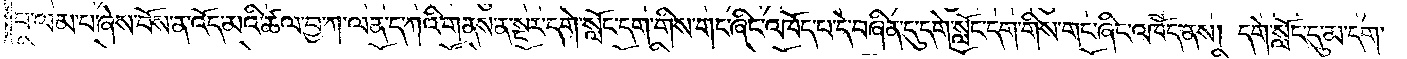པ་ལམ་པ་ཞེས་བོས་ན་འོད་མའི་ཚལ་བྱ་ཀ་ལན་ཀའི་གནས་ན་སྔར་དགེ་སློང་དག་གིས་གང་ཞིང་འཁོད་པ་དེ་བཞིན་དུ་དགེ་སློང་དག་གིས་གང་ཞིག་འཁོད་ནས། དགེ་སློང་དུ་མ་དག་
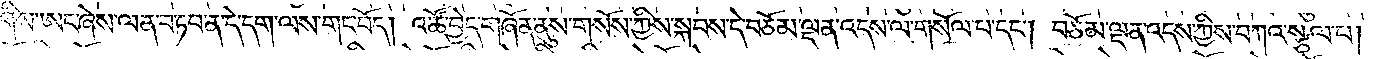གིས་ཨང་ཞེས་ལན་བཏབ་ན་དེ་དག་ལས་གང་བོད། འཚོ་བྱེད་གཞོན་ནུས་གསོས་ཀྱིས་སྐབས་དེ་བཅོམ་ལྡན་འདས་ལ་གསོལ་པ་དང༌། བཅོམ་ལྡན་འདས་ཀྱིས་བཀའ་སྩལ་པ།
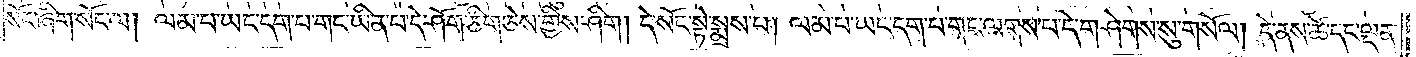སོང་ཞིག་སོང་ལ། ལམ་པ་ཡང་དག་པ་གང་ཡིན་པ་དེ་ཤོག་ཅིག་ཅེས་གྱིས་ཤིག །དེ་སོང་སྟེ་སྨྲས་པ། ལམ་པ་ཡང་དག་པ་གང་ལགས་པ་དེ་གཤེགས་སུ་གསོལ། དེ་ནས་ཚེ་དང་ལྡན་
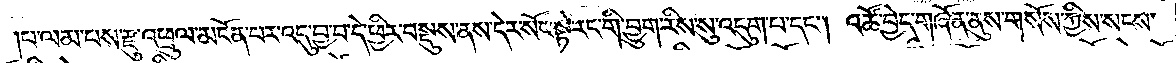པ་ལམ་པས་རྫུ་འཕྲུལ་མངོན་པར་འདུ་བྱ་བ་དེ་ཕྱིར་བསྡུས་ནས་དེར་སོང་སྟེ་རང་གི་བྱུག་རིས་སུ་འདུག་པ་དང༌། འཚོ་བྱེད་གཞོན་ནུས་གསོས་ཀྱིས་སངས་
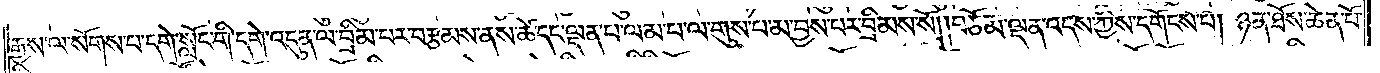རྒྱས་ལ་སོགས་པ་དགེ་སློང་གི་དགེ་འདུན་ལ་བྲིམ་པར་བརྩམས་ནས་ཚེ་དང་ལྡན་པ་ལམ་པ་ལ་གུས་པ་མ་བྱས་པར་བྲིམས་སོ། །བཅོམ་ལྡན་འདས་ཀྱིས་དགོངས་པ། ཉན་ཐོས་ཆེན་པོ་
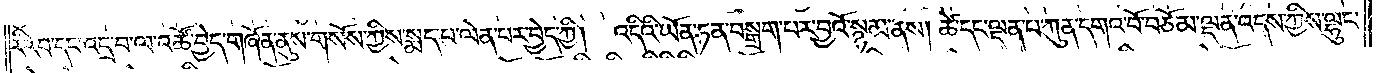རི་རབ་དང་འདྲ་བ་ལ་འཚོ་བྱེད་གཞོན་ནུས་གསོས་ཀྱིས་སྨད་པ་ལེན་པར་བྱེད་ཀྱི། འདིའི་ཡོན་ཏན་བསྒྲག་པར་བྱའོ་སྙམ་ནས། ཚེ་དང་ལྡན་པ་ཀུན་དགའ་བོ་བཅོམ་ལྡན་འདས་ཀྱིས་ལྷུང་
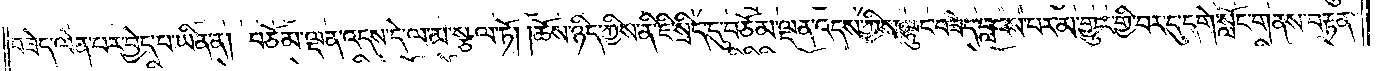བཟེད་ལེན་པར་བྱེད་པ་ཡིན་ན། བཅོམ་ལྡན་འདས་དེ་ལ་མ་སྩལ་ཏོ། །ཆོས་ཉིད་ཀྱིས་ནི་ཇི་སྲིད་དུ་བཅོམ་ལྡན་འདས་ཀྱིས་ལྷུང་བཟེད་བླངས་པར་མ་གྱུར་གྱི་བར་དུ་དགེ་སློང་གནས་བརྟན་
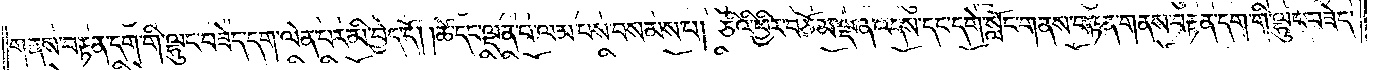གནས་བརྟན་དག་གི་ལྷུང་བཟེད་དག་ལེན་པར་མི་བྱེད་དོ། །ཚེ་དང་ལྡན་པ་ལམ་པས་བསམས་པ། ཅིའི་ཕྱིར་བཅོམ་ལྡན་འདས་དང་དགེ་སློང་གནས་བརྟན་གནས་བརྟན་དག་གི་ལྷུང་བཟེད་
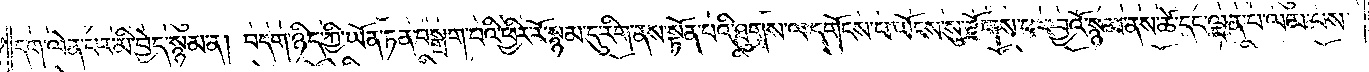དག་ལེན་པར་མི་བྱེད་སྙམ་ན། བདག་ཉིད་ཀྱིས་ཡོན་ཏན་བསྒྲག་པའི་ཕྱིར་རོ་སྙམ་དུ་རིག་ནས་སྟོན་པའི་ཐུགས་ལ་དགོངས་པ་ཡོངས་སུ་རྫོགས་པར་བྱའོ་སྙམ་ནས་ཚེ་དང་ལྡན་པ་ལམ་པས་
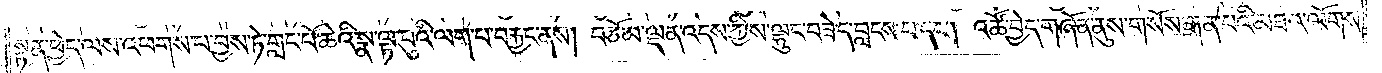སྟན་ཕྱེད་ལས་འཕགས་པ་བྱས་ཏེ་གླང་པོ་ཆེའི་སྣ་ལྟ་བུའི་ལག་པ་བརྐྱང་ནས། བཅོམ་ལྡན་འདས་ཀྱིས་ལྷུང་བཟེད་བླངས་པ་དང༌། འཚོ་བྱེད་གཞོན་ནུས་གསོས་རྒན་པའི་མཐའ་ལོགས་
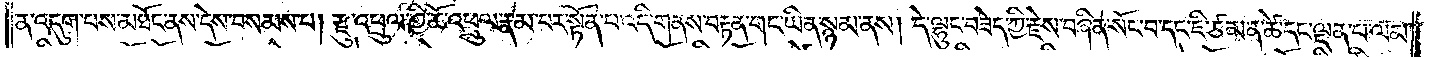ན་འདུག་པས་མཐོང་ནས་དེས་བསམས་པ། རྫུ་འཕྲུལ་གྱི་ཆོ་འཕྲུལ་རྣམ་པར་སྟོན་པ་འདི་གནས་བརྟན་གང་ཡིན་སྙམ་ནས། དེ་ལྷུང་བཟེད་ཀྱི་རྗེས་བཞིན་སོང་བ་དང་ཇི་ཙམ་ན་ཚེ་དང་ལྡན་པ་ལམ་
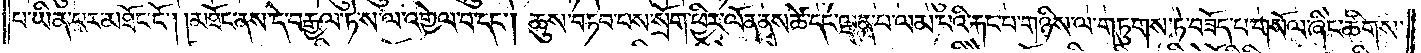པ་ཡིན་པར་མཐོང་ངོ༌། །མཐོང་ནས་དེ་བརྒྱལ་ཏེ་ས་ལ་འགྱེལ་བ་དང༌། ཆུས་བཏབ་པས་སྲོག་ཕྱིར་ལོན་ནས་ཚེ་དང་ལྡན་པ་ལམ་པའི་རྐང་པ་གཉིས་ལ་གཏུགས་ཏེ་བཟོད་པ་གསོལ་ཞིང་ཚིགས་
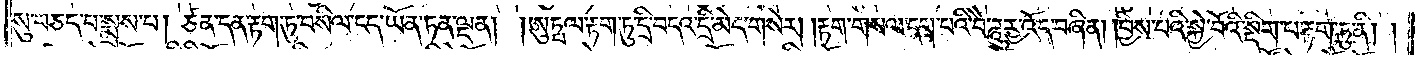སུ་བཅད་པ་སྨྲས་པ། ཙན་དན་རྟག་ཏུ་བསིལ་ངད་ཡོན་ཏན་ལྡན། །ཨུཏྤལ་རྟག་ཏུ་དྲི་བདའ་དྲི་མེད་གསེར། །རྟག་གསལ་དག་པའི་བཻ་ཌཱུཪྻ་འོད་བཞིན། །བྱིས་པའི་སྐྱེ་བོའི་སྡིག་པ་རྟག་ཏུ་ནི། །
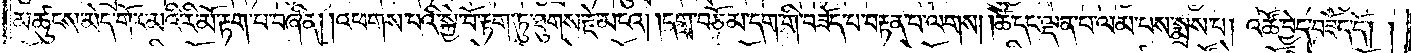མཚུངས་མེད་གོར་མའི་རི་མོ་རྟག་པ་བཞིན། །འཕགས་པའི་སྐྱེ་བོ་རྟག་ཏུ་ཐུགས་རྗེ་མངའ། །དགྲ་བཅོམ་དག་གི་བཟོད་པ་བརྟན་པ་ལགས། །ཚེ་དང་ལྡན་པ་ལམ་པས་སྨྲས་པ། འཚོ་བྱེད་བཟོད་དོ། །
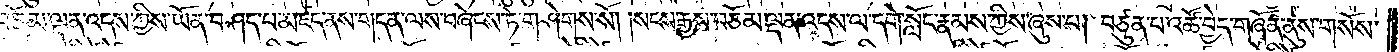བཅོམ་ལྡན་འདས་ཀྱིས་ཡོན་བཤད་པ་མཛད་ནས་གདན་ལས་བཞེངས་ཏེ་གཤེགས་སོ། །སངས་རྒྱས་བཅོམ་ལྡན་འདས་ལ་དགེ་སློང་རྣམས་ཀྱིས་ཞུས་པ། བཙུན་པ་འཚོ་བྱེད་གཞོན་ནུས་གསོས་
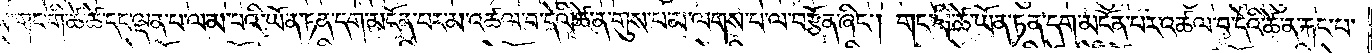ཀྱིས་གང་གི་ཚེ་དང་ལྡན་པ་ལམ་པའི་ཡོན་ཏན་དག་མངོན་པར་མ་འཚལ་བ་དེའི་ཚེ་ན་གུས་པ་མ་ལགས་པ་ལ་བརྩོན་ཞིང༌། གང་གི་ཚེ་ཡོན་ཏན་དག་མངོན་པར་འཚལ་བ་དེའི་ཚེ་ན་རྐང་པ་
